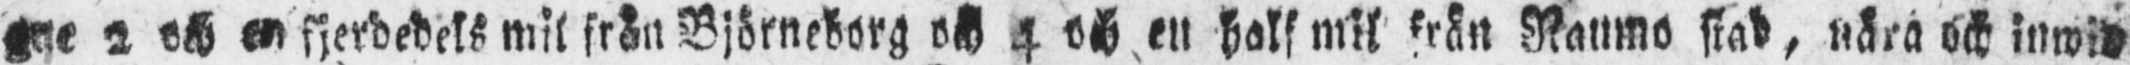ne 2 och en fjerdedels mil från Björneborg och 4 och en half mil från Raumo stab, nära och inwid
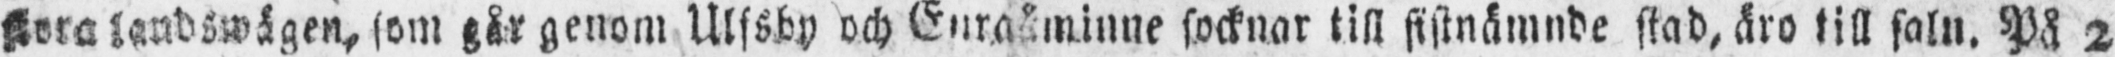stora landswägen, som går genom Ulfsby och Euraåminne socknar till sistnämnde stad, äro till salu. På 2
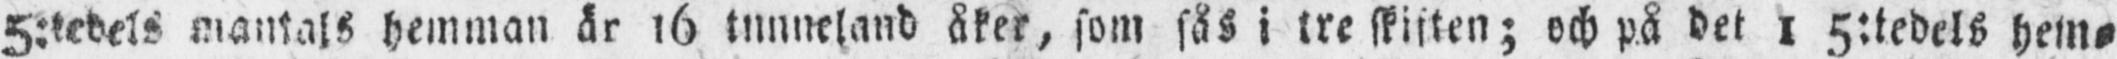5:tedels mantals hemman är 16 tunneland åker, som sås i tre skiften; och på det 1 5:tedels hem-
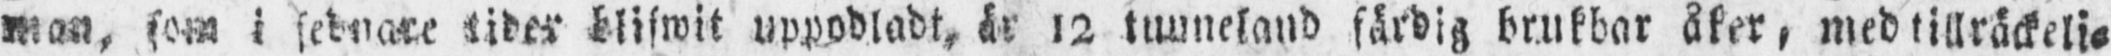man, som i sednare tider blifwit uppodladt, är l2 tunneland färdig brukbar åker, med tillräckeli-
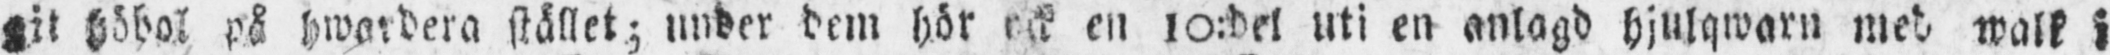git höbol på hwardera stället; under dem hör ock en 10:del uti en anlagd hjulqwarn med walk i
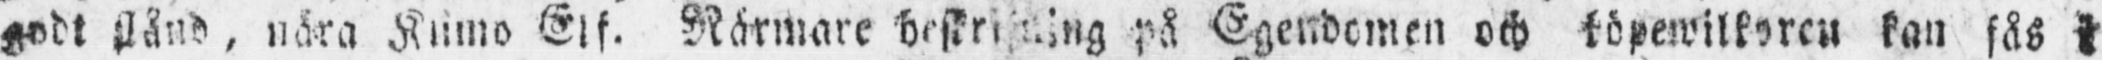godt stånd, nära Kumo Elf. Närmare beskrifning på Egendomen och köpewilkoren kan fås i
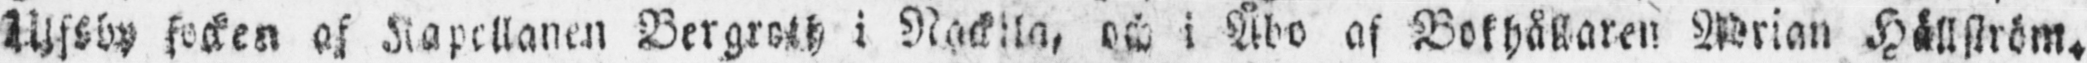Ulfsby socken af Kapellanen Bergroth i Nackila, och i Åbo af Bokhållaren Adrian Hällström.
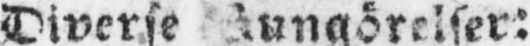Diverse kungörelser:
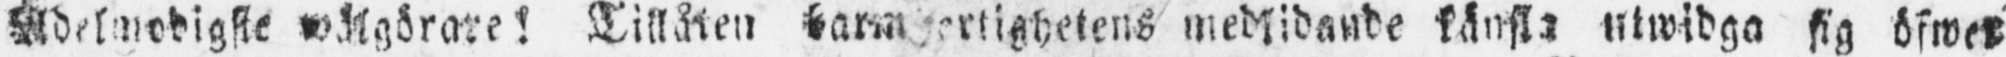Ädelmodigste wälgörare! Tillåten barmhertighetens medlidande känsla utwidga sig öfwer
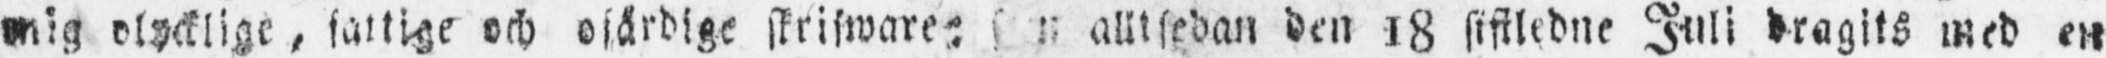mig olycklige, fattige och ofärdige skrifware: som alltsedan den 18 sistledne Juli dragits med en
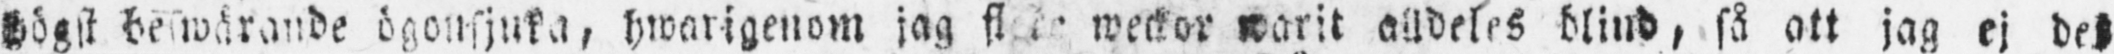högst beswårande ögonsjuka, hwarigenom jag flere weckor warit alldeles blind, så att jag ej det
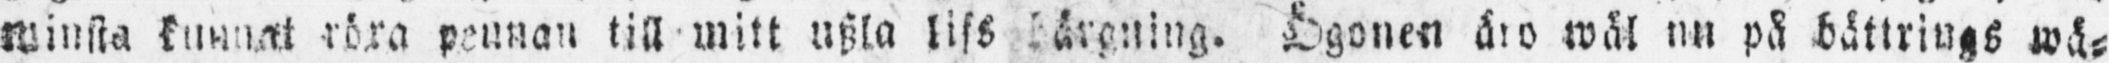minsta kunnat röra pennan till mitt uszla lifs bärgning. Ögonen äro wäl nu på bättrings wä-
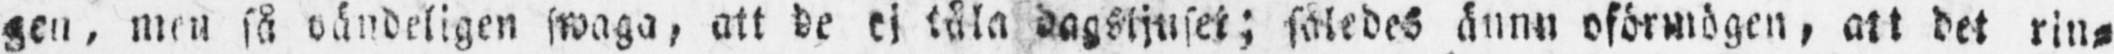gen, men så oändeligen swaga, att de ej tåla dagsljuset; således ännu oförmögen, att det rin-
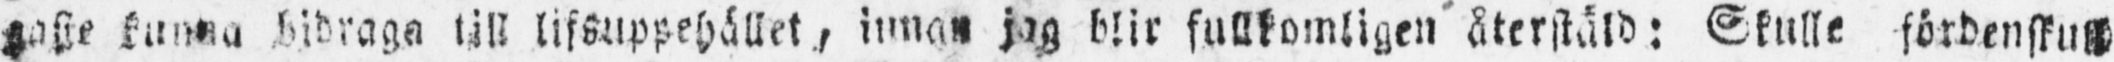gaste kunna bidraga till lifsuppehället, innan jag blir fullkomligen återstäld: Skulle fördenskull
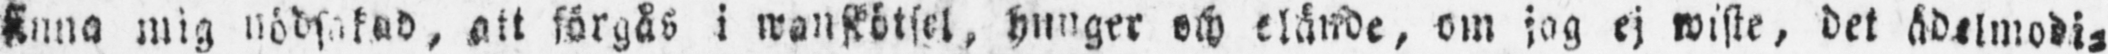finna mig nödsakad, att förgås i wanskötsel, hunger och elände, om jag ej wiste, det ädelmodi-
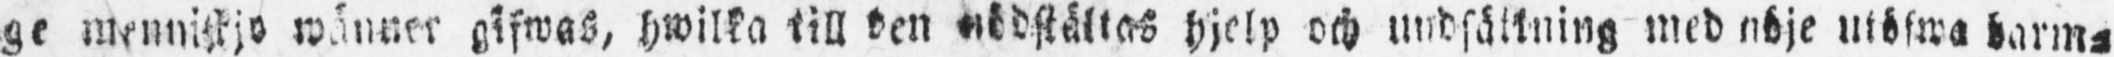ge menniskjo wänner gifwas, hwilka till den nödstältas hjelp och undsättning med nöje utöfwa barm-
